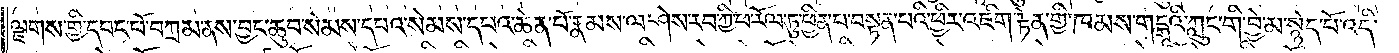ལྗགས་གྱི་དབང་པོ་བཀྲམ་ནས་བྱང་ཆུབ་སེམས་དཔའ་སེམས་དཔའ་ཆེན་པོ་རྣམས་ལ་ཤེས་རབ་ཀྱི་ཕ་རོལ་ཏུ་ཕྱིན་པ་བསྟན་པའི་ཕྱིར་འཇིག་རྟེན་གྱི་ཁམས་གངྒཱའི་ཀླུང་གི་བྱེ་མ་སྙེད་པོ་འདི་
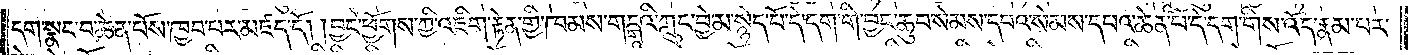དག་སྣང་བ་ཆེན་པོས་ཁྱབ་པར་མཛད་དོ། །བྱང་ཕྱོགས་ཀྱི་འཇིག་རྟེན་གྱི་ཁམས་གངྒཱའི་ཀླུང་བྱེ་མ་སྙེད་པོ་དེ་དག་གི་བྱང་ཆུབ་སེམས་དཔའ་སེམས་དཔའ་ཆེན་པོ་དེ་དག་གིས་འོད་རྣམ་པར་
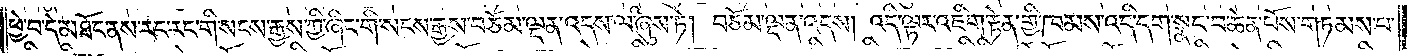ཕྱེ་བ་དེ་མཐོང་ནས་རང་རང་གི་སངས་རྒྱས་ཀྱི་ཞིང་གི་སངས་རྒྱས་བཅོམ་ལྡན་འདས་ལ་ཞུས་ཏེ། བཅོམ་ལྡན་འདས། འདི་ལྟར་འཇིག་རྟེན་གྱི་ཁམས་འདི་དག་སྣང་བ་ཆེན་པོས་གཏམས་པ་
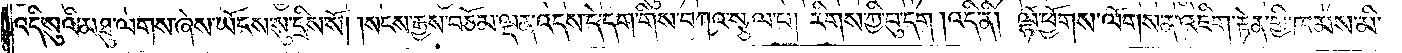འདི་སུའི་མཐུ་ལགས་ཞེས་ཡོངས་སུ་དྲིས་སོ། །སངས་རྒྱས་བཅོམ་ལྡན་འདས་དེ་དག་གིས་བཀའ་སྩལ་པ། རིགས་ཀྱི་བུ་དག །འདི་ནི། ལྷོ་ཕྱོགས་ལོགས་ན་འཇིག་རྟེན་གྱི་ཁམས་མི་
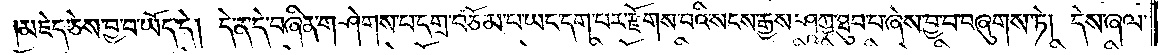མཇེད་ཅེས་བྱ་བ་ཡོད་དེ། དེ་ན་དེ་བཞིན་གཤེགས་པ་དགྲ་བཅོམ་པ་ཡང་དག་པར་རྫོགས་པའི་སངས་རྒྱས་ཤཱཀྱ་ཐུབ་པ་ཞེས་བྱ་བ་བཞུགས་ཏེ། དེས་ཞལ་
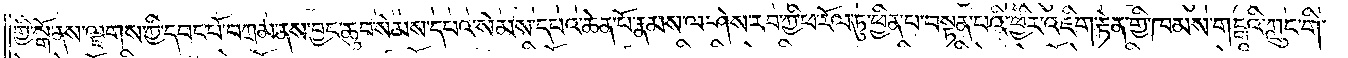གྱི་སྒོ་ནས་ལྗགས་ཀྱི་དབང་པོ་བཀྲམ་ནས་བྱང་ཆུབ་སེམས་དཔའ་སེམས་དཔའ་ཆེན་པོ་རྣམས་ལ་ཤེས་རབ་ཀྱི་ཕ་རོལ་ཏུ་ཕྱིན་པ་བསྟན་པའི་ཕྱིར་འཇིག་རྟེན་གྱི་ཁམས་གངྒཱའི་ཀླུང་གི་
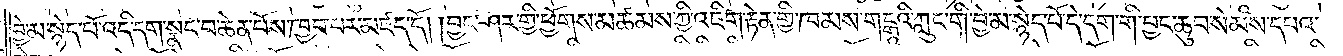བྱེ་མ་སྙེད་པོ་འདི་དག་སྣང་བ་ཆེན་པོས་ཁྱབ་པར་མཛད་དོ། །བྱང་ཤར་གྱི་ཕྱོགས་མཚམས་ཀྱི་འཇིག་རྟེན་གྱི་ཁམས་གངྒཱའི་ཀླུང་གི་བྱེ་མ་སྙེད་པོ་དེ་དག་གི་བྱང་ཆུབ་སེམས་དཔའ་
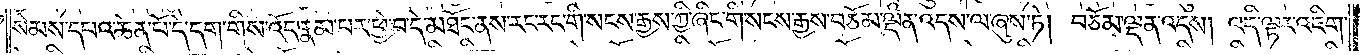སེམས་དཔའ་ཆེན་པོ་དེ་དག་གིས་འོད་རྣམ་པར་ཕྱེ་བ་དེ་མཐོང་ནས་རང་རང་གི་སངས་རྒྱས་ཀྱི་ཞིང་གི་སངས་རྒྱས་བཅོམ་ལྡན་འདས་ལ་ཞུས་ཏེ། བཅོམ་ལྡན་འདས། འདི་ལྟར་འཇིག་
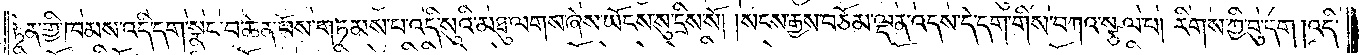རྟེན་གྱི་ཁམས་འདི་དག་སྣང་བ་ཆེན་པོས་གཏམས་པ་འདི་སུའི་མཐུ་ལགས་ཞེས་ཡོངས་སུ་དྲིས་སོ། །སངས་རྒྱས་བཅོམ་ལྡན་འདས་དེ་དག་གིས་བཀའ་སྩལ་པ། རིགས་ཀྱི་བུ་དག །འདི་
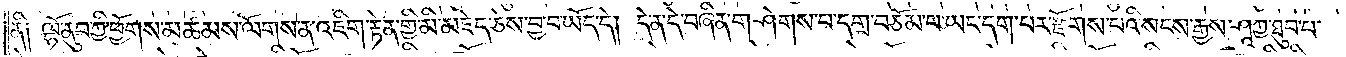ནི༑ ལྷོ་ནུབ་ཀྱི་ཕྱོགས་མཚམས་ལོགས་ན་འཇིག་རྟེན་གྱི་མི་མཇེད་ཅེས་བྱ་བ་ཡོད་དེ། དེ་ན་དེ་བཞིན་གཤེགས་པ་དགྲ་བཅོམ་པ་ཡང་དག་པར་རྫོགས་པའི་སངས་རྒྱས་ཤཱཀྱ་ཐུབ་པ་
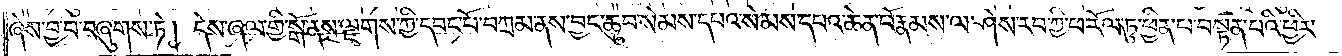ཞེས་བྱ་བ་བཞུགས་ཏེ། དེས་ཞལ་གྱི་སྒོ་ནས་ལྗགས་ཀྱི་དབང་པོ་བཀྲམ་ནས་བྱང་ཆུབ་སེམས་དཔའ་སེམས་དཔའ་ཆེན་པོ་རྣམས་ལ་ཤེས་རབ་ཀྱི་ཕ་རོལ་ཏུ་ཕྱིན་པ་བསྟན་པའི་ཕྱིར་
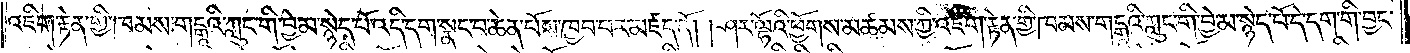འཇིག་རྟེན་གྱི་ཁམས་གངྒཱའི་ཀླུང་གི་བྱེ་མ་སྙེད་པོ་འདི་དག་སྣང་བ་ཆེན་པོས་ཁྱབ་པར་མཛད་དོ། །ཤར་ལྷོའི་ཕྱོགས་མཚམས་ཀྱི་འཇིག་རྟེན་གྱི་ཁམས་གངྒཱའི་ཀླུང་གི་བྱེ་མ་སྙེད་པོ་དེ་དག་གི་བྱང་
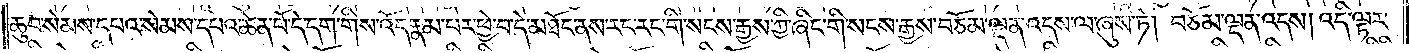ཆུབ་སེམས་དཔའ་སེམས་དཔའ་ཆེན་པོ་དེ་དག་གིས་འོད་རྣམ་པར་ཕྱེ་བ་དེ་མཐོང་ནས་རང་རང་གི་སངས་རྒྱས་ཀྱི་ཞིང་གི་སངས་རྒྱས་བཅོམ་ལྡན་འདས་ལ་ཞུས་ཏེ། བཅོམ་ལྡན་འདས། འདི་ལྟར་
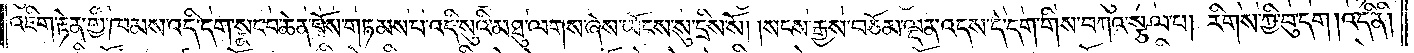འཇིག་རྟེན་གྱི་ཁམས་འདི་དག་སྣང་བ་ཆེན་པོས་གཏམས་པ་འདི་སུའི་མཐུ་ལགས་ཞེས་ཡོངས་སུ་དྲིས་སོ། །སངས་རྒྱས་བཅོམ་ལྡན་འདས་དེ་དག་གིས་བཀའ་སྩལ་པ། རིགས་ཀྱི་བུ་དག །འདི་ནི།
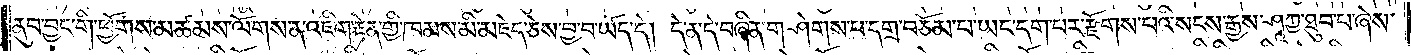ནུབ་བྱང་གི་ཕྱོགས་མཚམས་ལོགས་ན་འཇིག་རྟེན་གྱི་ཁམས་མི་མཇེད་ཅེས་བྱ་བ་ཡོད་དེ། དེ་ན་དེ་བཞིན་གཤེགས་པ་དགྲ་བཅོམ་པ་ཡང་དག་པར་རྫོགས་པའི་སངས་རྒྱས་ཤཱཀྱ་ཐུབ་པ་ཞེས་
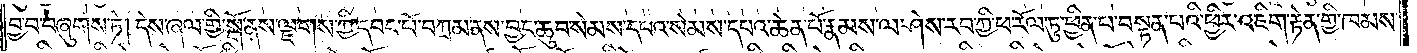བྱ་བ་བཞུགས་ཏེ། དེས་ཞལ་གྱི་སྒོ་ནས་ལྗགས་ཀྱི་དབང་པོ་བཀྲམ་ནས་བྱང་ཆུབ་སེམས་དཔའ་སེམས་དཔའ་ཆེན་པོ་རྣམས་ལ་ཤེས་རབ་ཀྱི་ཕ་རོལ་ཏུ་ཕྱིན་པ་བསྟན་པའི་ཕྱིར་འཇིག་རྟེན་གྱི་ཁམས་
